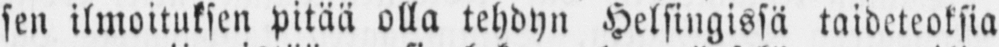sen ilmoituksen pitää olla tehdyn Helsingissä taideteoksia
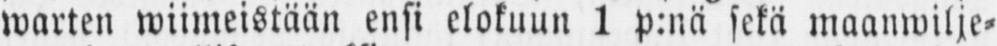warten wiimeistään ensi elokuun 1 p:nä sekä maanwilje-
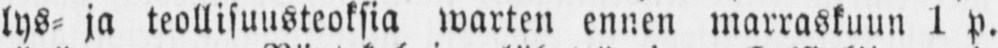lys- ja teollisuusteoksia warten ennen marraskuun 1 p.
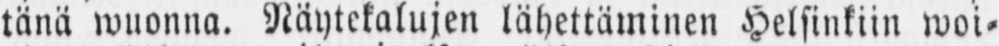tänä wuonna. Näytekalujen lähettäminen Helsinkiin woi-
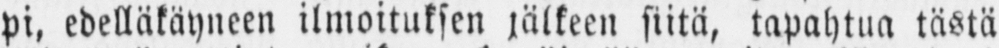pi, edelläkäyneen ilmoituksen jälkeen siitä, tapahtua tästä
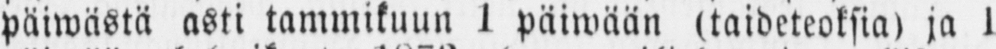päiwästä asti tammikuun 1 päiwään (taideteoksia) ja 1
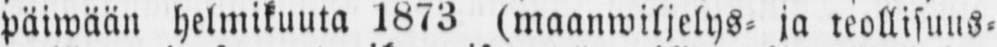päiwään helmikuuta 1873 (maanwiljelys- ja teollisuus-
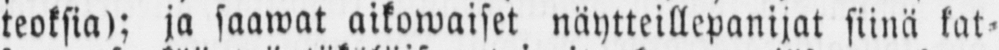teoksia); ja saawat aikowaiset näytteillepanijat siinä kat-
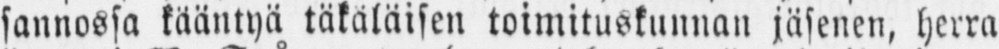sannossa kääntyä täkäläisen toimituskunnan jäsenen, herra
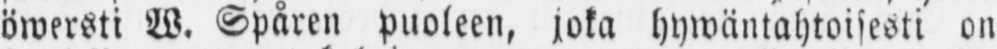öwersti W. Spåren puoleen, joka hywäntahtoisesti on
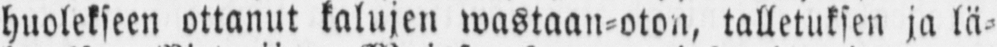huolekseen ottanut kalujen wastaan-oton, talletuksen ja lä-
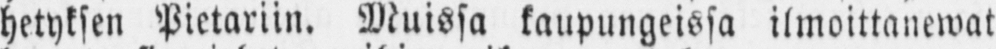hetyksen Pietariin. Muissa kaupungeissa ilmoittanewat
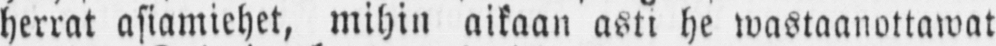herrat asiamiehet, mihin aikaan asti he wastaanottawat
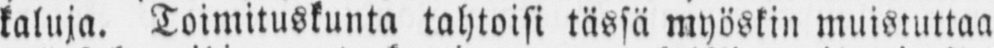kaluja. Toimituskunta tahtoisi tässä myöskin muistuttaa
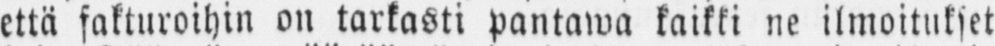että fakturoihin on tarkasti pantawa kaikki ne ilmoitukset
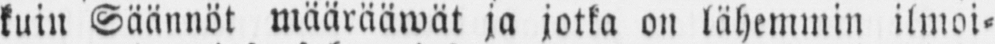kuin Säännöt määrääwät ja jotka on lähemmin ilmoi-
